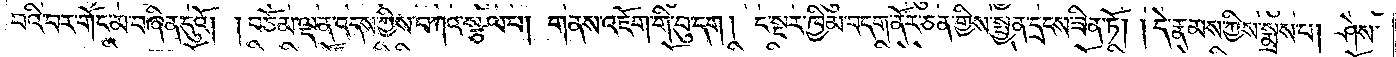བའི་བར་གོང་མ་བཞིན་དུའོ། །བཅོམ་ལྡན་འདས་ཀྱིས་བཀའ་སྩལ་པ། གནས་འཇོག་གི་བུ་དག། ང་སྔར་ཁྱིམ་བདག་ནོར་ཅན་གྱིས་སྤྱན་དྲངས་ཟིན་ཏོ། །དེ་རྣམས་ཀྱིས་སྨྲས་པ། ཤེས་
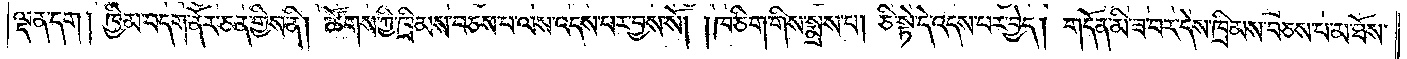ལྡན་དག། ཁྱིམ་བདག་ནོར་ཅན་གྱིས་ནི། ཚོགས་ཀྱི་ཁྲིམས་བཅས་པ་ལས་འདས་པར་བྱས་སོ། །ཁ་ཅིག་གིས་སྨྲས་པ། ཅི་སྟེ་དེ་འདས་པར་བྱེད། གདོན་མི་ཟ་བར་དེས་ཁྲིམས་བཅས་པ་མ་ཐོས་
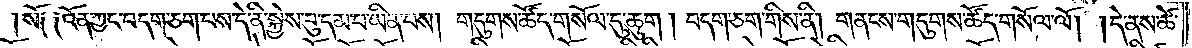།སོ༑ ༑འོན་ཀྱང་བདག་ཅག་པས་དེ་ནི་སྐྱེས་བུ་དམ་པ་ཡིན་པས། གདུགས་ཚོད་གསོལ་དུ་ཆུག །བདག་ཅག་གིས་ནི། གནངས་གདུགས་ཚོད་གསོལ་ལོ། །དེ་ནས་ཚེ་
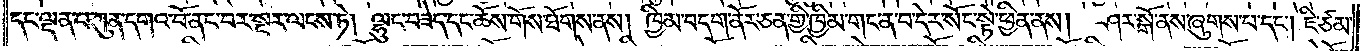དང་ལྡན་པ་ཀུན་དགའ་བོ་ནང་བར་སྔར་ལངས་ཏེ། ལྷུང་བཟེད་དང་ཆོས་གོས་ཐོགས་ནས། ཁྱིམ་བདག་ནོར་ཅན་གྱི་ཁྱིམ་གང་ན་བ་དེར་སོང་སྟེ་ཕྱིན་ནས། ཤར་སྒོ་ནས་ཞུགས་པ་དང༌། ཇི་ཙམ་
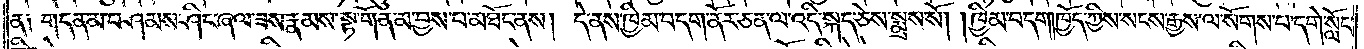ན༑ གདན་མ་བཤམས་ཤིང་ཞལ་ཟས་རྣམས་སྟ་གོན་མ་བྱས་པ་མཐོང་ནས། དེ་ནས་ཁྱིམ་བདག་ནོར་ཅན་ལ་འདི་སྐད་ཅེས་སྨྲས་སོ། །ཁྱིམ་བདག །ཁྱོད་ཀྱིས་སངས་རྒྱས་ལ་སོགས་པ་དགེ་སློང་
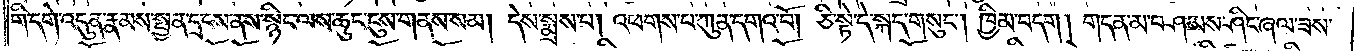གི་དགེ་འདུན་རྣམས་སྤྱན་དྲངས་ནས་སྙིང་ལས་ཆུང་ངུས་གནས་སམ། དེས་སྨྲས་པ། འཕགས་པ་ཀུན་དགའ་བོ། ཅི་སྟེ་དེ་སྐད་གསུང༌། ཁྱིམ་བདག། གདན་མ་བཤམས་ཤིང་ཞལ་ཟས་
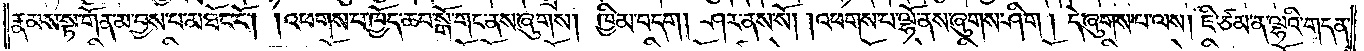རྣམས་སྟ་གོན་མ་བྱས་པ་མཐོང་ངོ༌། །འཕགས་པ་ཁྱོད་ཆབ་སྒོ་གང་ནས་ཞུགས། ཁྱིམ་བདག། ཤར་ནས་སོ། །འཕགས་པ་ལྷོ་ནས་ཞུགས་ཤིག །དེ་ཞུགས་པ་ལས། ཇི་ཙམ་ན་ལྷའི་གདན་
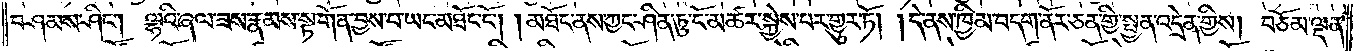བཤམས་ཤིང༌། ལྷའི་ཞལ་ཟས་རྣམས་སྟ་གོན་བྱས་པ་ཡང་མཐོང་ངོ༌། །མཐོང་ནས་ཀྱང་ཤིན་ཏུ་ངོ་མཚར་སྐྱེས་པར་གྱུར་ཏོ། །དེ་ནས་ཁྱིམ་བདག་ནོར་ཅན་གྱི་སྤྱན་འདྲེན་གྱིས། བཅོམ་ལྡན་
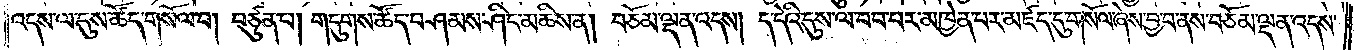འདས་ལ་དུས་ཚོད་གསོལ་བ། བཙུན་པ། གདུགས་ཚོད་བཤམས་ཤིང་མཆིས་ན། བཅོམ་ལྡན་འདས། ད་དེའི་དུས་ལ་བབ་པར་མཁྱེན་པར་མཛད་དུ་གསོལ་ཞེས་བྱ་བ་ནས་བཅོམ་ལྡན་འདས་
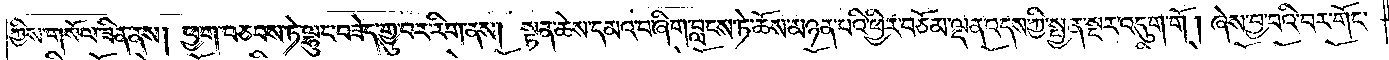ཀྱིས་གསོལ་ཟིན་ནས། ཕྱག་བཅབས་ཏེ་ལྷུང་བཟེད་གྱུ་བར་རིག་ནས། སྟན་ཆེས་དམའ་བ་ཞིག་བླངས་ཏེ་ཆོས་མཉམ་པའི་ཕྱིར་བཅོམ་ལྡན་འདས་ཀྱི་སྤྱན་སྔར་འདུག་གོ། ཞེས་བྱ་བའི་བར་གོང་
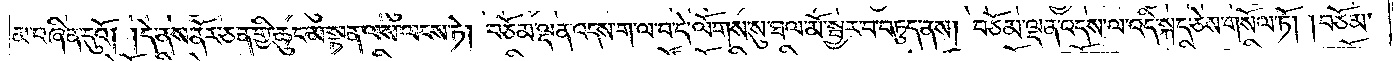མ་བཞིན་དུའོ། །དེ་ནས་ནོར་ཅན་གྱི་ཆུང་མ་སྟན་ལས་ལངས་ཏེ། བཅོམ་ལྡན་འདས་ག་ལ་བ་དེ་ལོགས་སུ་ཐལ་མོ་སྦྱར་བ་བཏུད་ནས། བཅོམ་ལྡན་འདས་ལ་འདི་སྐད་ཅེས་གསོལ་ཏོ། །བཅོམ་
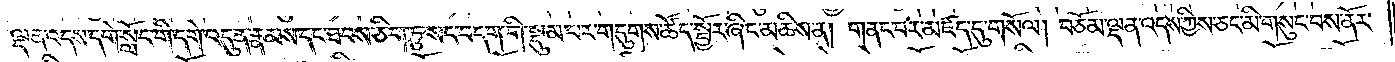ལྡན་འདས་དགེ་སློང་གི་དགེ་འདུན་རྣམས་དང་ཐབས་ཅིག་ཏུ་སང་བདག་གི་སྡུམ་པར་གདུགས་ཚོད་སྦྱོར་ཞིང་མཆིས་ན། གནང་བར་མཛད་དུ་གསོལ། བཅོམ་ལྡན་འདས་ཀྱིས་ཅང་མི་གསུང་བས་ནོར་
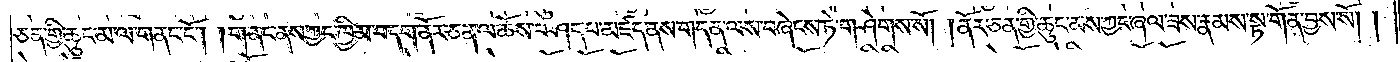ཅན་གྱི་ཆུང་མ་ལ་གནང་ངོ༌། །གནང་ནས་ཀྱང་ཁྱིམ་བདག་ནོར་ཅན་ལ་ཆོས་བཤད་པ་མཛད་ནས་གདན་ལས་བཞེངས་ཏེ་གཤེགས་སོ། །ནོར་ཅན་གྱི་ཆུང་མས་ཀྱང་ཞལ་ཟས་རྣམས་སྟ་གོན་བྱས་སོ། །
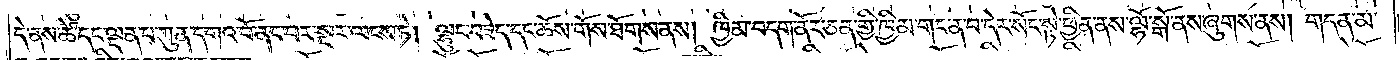དེ་ནས་ཚེ་དང་ལྡན་པ་ཀུན་དགའ་བོ་ནང་པར་སྔར་ལངས་ཏེ། ལྷུང་བཟེད་དང་ཆོས་གོས་ཐོགས་ནས། ཁྱིམ་བདག་ནོར་ཅན་གྱི་ཁྱིམ་གང་ན་བ་དེར་སོང་སྟེ་ཕྱིན་ནས་ལྷོ་སྒོ་ནས་ཞུགས་ནས། གདན་མ་
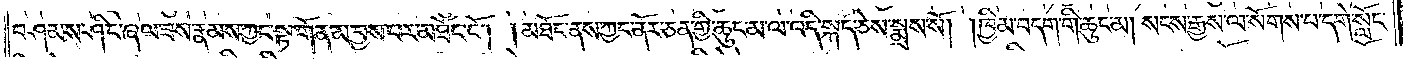བཤམས་ཤིང་ཞལ་ཟས་རྣམས་ཀྱང་སྟ་གོན་མ་བྱས་པར་མཐོང་ངོ༌། །མཐོང་ནས་ཀྱང་ནོར་ཅན་གྱི་ཆུང་མ་ལ་འདི་སྐད་ཅེས་སྨྲས་སོ། །ཁྱིམ་བདག་གི་ཆུང་མ། སངས་རྒྱས་ལ་སོགས་པ་དགེ་སློང་
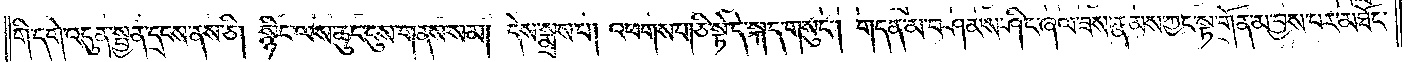གི་དགེ་འདུན་སྤྱན་དྲངས་ནས་ཅི། སྙིང་ལས་ཆུང་ངུས་གནས་སམ། དེས་སྨྲས་པ། འཕགས་པ། ཅི་སྟེ་དེ་སྐད་གསུང༌། གདན་མ་བཤམས་ཤིང་ཞལ་ཟས་རྣམས་ཀྱང་སྟ་གོན་མ་བྱས་པར་མཐོང་
